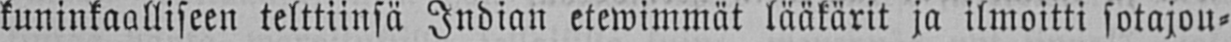kuninkaalliseen telttiinsä Indian etewimmät lääkärit ja ilmoitti sotajou-
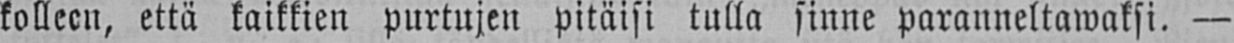kolleen, että kaikkien purtujen pitäisi tulla sinne paranneltawaksi. —
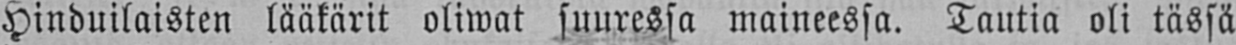Hinduilaisten lääkärit oliwat suuressa maineessa. Tautia oli tässä
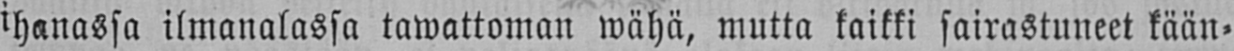ihanassa ilmanalassa tawattoman wähä, mutta kaikki sairastuneet kään-
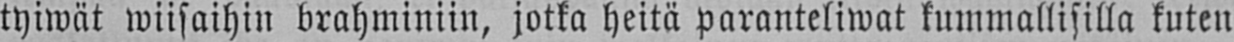tyiwät wiisaihin brahminiin, jotka heitä paranteliwat kummallisilla kuten
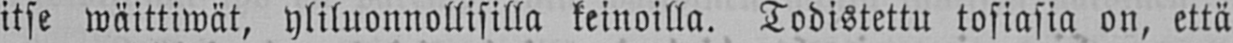itse wäittiwät, yliluonnollisilla keinoilla. Todistettu tosiasia on, että
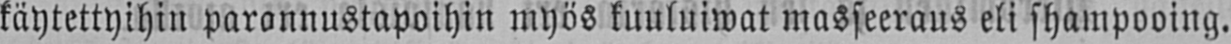käytettyihin parannustapoihin myös kuuluiwat masseeraus eli shampooing.
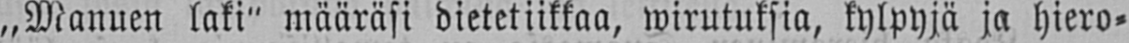„Manuen laki" määräsi dietetiikkaa, wirutuksia, kylpyjä ja hiero-
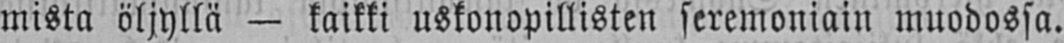mista öljyllä — kaikki uskonopillisten seremoniain muodossa.
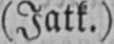(Jatk.)
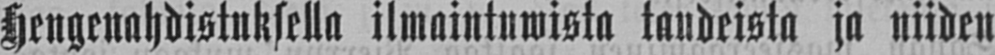Hengenahdistuksella ilmaintuwista taudeista ja niiden
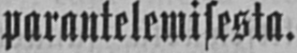parantelemisesta.
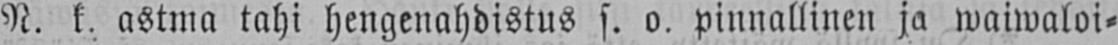N. k. astma tahi hengenahdistus s. o. pinnallinen ja waiwaloi-
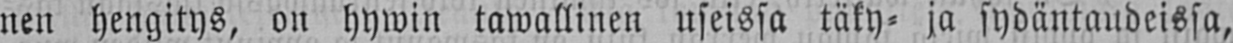nen hengitys, on hywin tawallinen useissa täky- ja sydäntaudeissa,
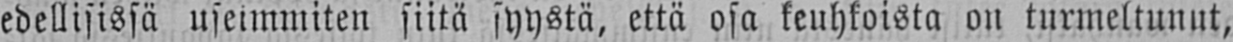edellisissä useimmiten siitä syystä, että osa keuhkoista on turmeltunut,
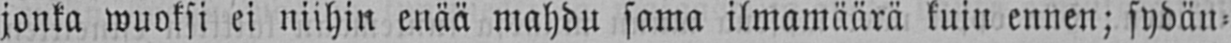jonka wuoksi ei niihin enää mahdu sama ilmamäärä kuin ennen; sydän-
